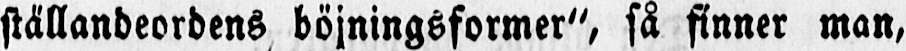ställandeordens böjningsformer", så finner man,
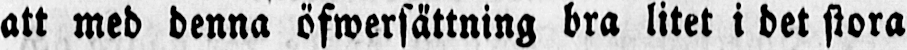att med denna öfwersättning bra litet i det stora
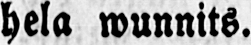hela wunnits.
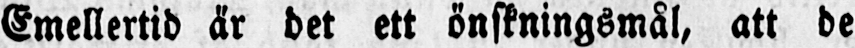Emellertid är det ett önskningsmål, att de
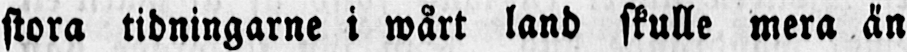stora tidningarne i wårt land skulle mera än
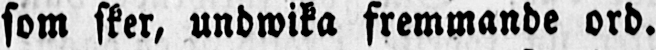som sker, undwika fremmande ord.
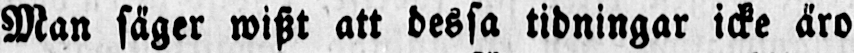Man säger wiszt att dessa tidningar icke äro
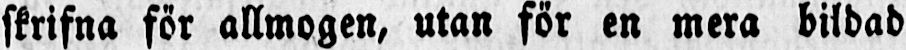skrifna för allmogen, utan för en mera bildad
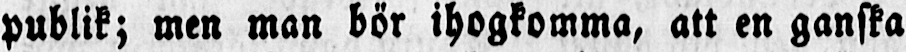publik; men man bör ihogkomma, att en ganska
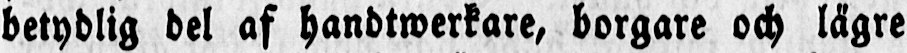betydlig del af handtwerkare, borgare och lägre
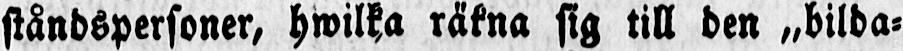ståndspersoner, hwilka räkna sig till den „bilda-
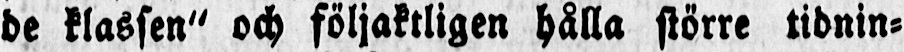de klassen" och följaktligen hålla större tidnin-
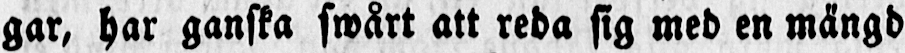gar, har ganska swårt att reda sig med en mängd
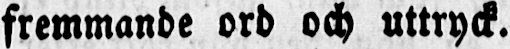fremmande ord och uttryck.
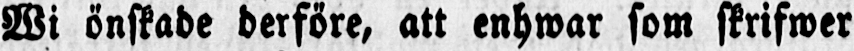Wi önskade derföre, att enhwar som skrifwer
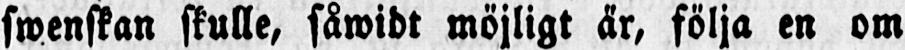swenskan skulle, såwidt möjligt är, följa en om
